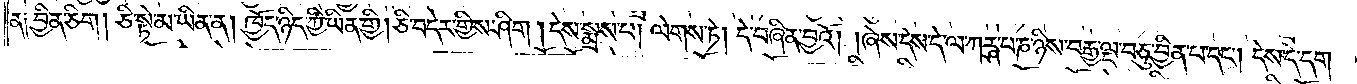ན༑ བྱིན་ཅིག །ཅི་སྟེ་མ་ཡིན་ན། ཁྱོད་ཉིད་ཀྱི་ཡིན་གྱི། ཅི་བདེར་གྱིས་ཤིག །དེས་སྨྲས་པ། ལེགས་ཏ། དེ་བཞིན་བྱའོ། །ཞེས་དེས་དེ་ལ་ཀཪྴ་པ་ཎ་ཉིས་བརྒྱ་ལྔ་བཅུ་བྱིན་པ་དང༌། དེས་དེ་དག་
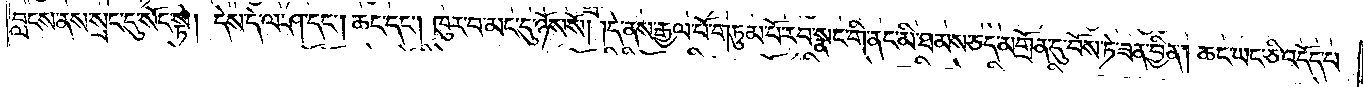བླངས་ནས་སྲང་དུ་སོང་སྟེ། དེས་དེ་ལ་ཤ་དང༌། ཆང་དང༌། ཁུར་བ་མང་དུ་ཉོས་སོ། །དེ་ནས་རྒྱལ་པོ་གཏུམ་པོ་རབ་སྣང་གི་ནང་མི་ཐམས་ཅད་མགྲོན་དུ་བོས་ཏ་ཟན་བྱིན། ཆང་ཡང་ཅི་འདོད་པ་
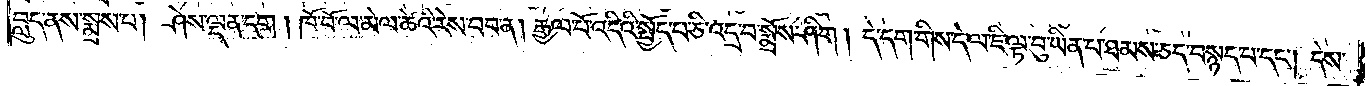བླུད་ནས་སྨྲས་པ། ཤེས་ལྡན་དག །ཁོ་བོ་ལ་མེལ་ཚེའི་རེས་བབ་ན། རྒྱལ་པོ་འདིའི་སྤྱོད་པ་ཅི་འདྲ་བ་སྨོས་ཤིག །དེ་དག་གིས་དེ་ལ་ཇི་ལྟ་བུ་ཡིན་པ་ཐམས་ཅད་བསྙད་པ་དང༌། དེས་
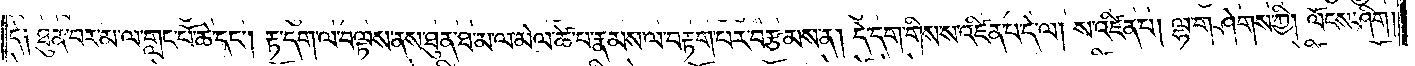དེ༑ ཐུན་བར་མ་ལ་གླང་པོ་ཆེ་དང༌། རྟ་དག་ལ་བལྟས་ནས་ཐུན་ཐ་མ་ལ་མེལ་ཚེ་པ་རྣམས་ལ་བརྟག་པར་བརྩམས་ན། དེ་དག་གིས་ས་འཛིན་པ་དེ་ལ། ས་འཛིན་པ། ལྷ་གཤེགས་ཀྱི། ལོངས་ཤིག །
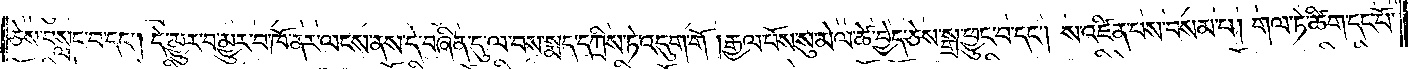ཅེས་བསླང་བ་དང༌། དེ་མྱུར་བ་མྱུར་བ་ཁོ་ནར་ལངས་ནས་དེ་བཞིན་དུ་ལ་བས་སྨད་དཀྲིས་ཏེ་འདུག་གོ །རྒྱལ་པོས་སུ་མེལ་ཚེ་བྱེད་ཅེས་སྒྲ་ཕྱུང་བ་དང༌། ས་འཛིན་པས་བསམ་པ། གལ་ཏེ་ཚིག་དང་པོ་
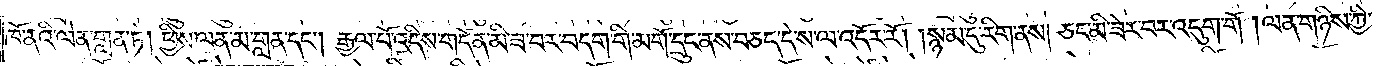ཁོ་ནའི་ལེན་གླན་ཏེ། ཕྱིས་ལན་མ་གླན་དང༌། རྒྱལ་པོ་འདིས་གདོན་མི་ཟ་བར་བདག་གི་མགོ་དྲུང་ནས་བཅད་དེ་ས་ལ་འདོར་རོ། །སྙམ་དུ་རིག་ནས། ཅང་མི་ཟེར་བར་འདུག་གོ །ལན་གཉིས་ཀྱི་
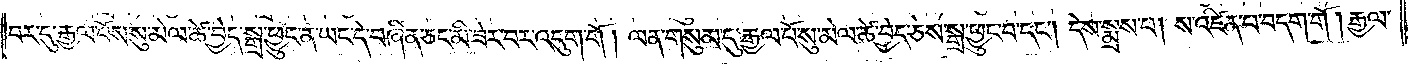བར་དུ་རྒྱལ་པོས་སུ་མེལ་ཚེ་བྱེད་སྒྲ་ཕྱུང་ན་ཡང་དེ་བཞིན་ཅང་མི་ཟེར་བར་འདུག་གོ །ལན་གསུམ་དུ་རྒྱལ་པོ་སུ་མེལ་ཚེ་བྱེད་ཅེས་སྒྲ་ཕྱུང་བ་དང༌། དེས་སྨྲས་པ། ས་འཛིན་པ་བདག་གོ །རྒྱལ་
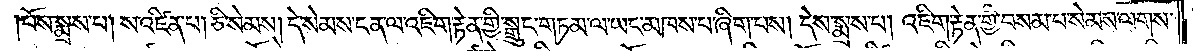པོས་སྨྲས་པ། ས་འཛིན་པ། ཅི་སེམས། དེ་སེམས་ངན་ལ་འཇིག་རྟེན་གྱི་སྒྲུང་གཏམ་ལ་ཡང་མཁས་པ་ཞིག་པས། དེས་སྨྲས་པ། འཇིག་རྟེན་གྱི་བསམ་པ་སེམས་ལགས་
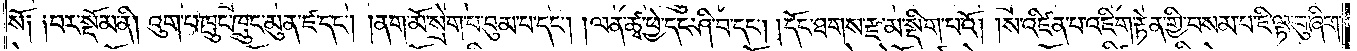སོ༑ ༑བར་སྡོམ་ནི། འུག་པ་ཁྲུང་ཁྲུང་མུན་ཛ་དང༌། །ནག་མོ་སྲེག་པ་བུམ་པ་དང༌། །ལན་ཚྭ་ཕྱེ་དང་ཤི་བ་དང༌། །དོང་ཐགས་རྫ་མ་སྡིག་པའོ། །ས་འཛིན་པ་འཇིག་རྟེན་གྱི་བསམ་པ་ཇི་ལྟ་བུ་ཞིག་
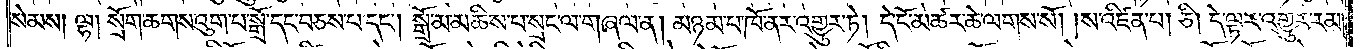སེམས། ལྷ། སྲོག་ཆགས་འུག་པ་སྒྲོ་དང་བཅས་པ་དང༌། སྒྲོ་མ་མཆིས་པ་སྲང་ལ་གཞལ་ན། མཉམ་པ་ཁོ་ནར་འགྱུར་ཏེ། དེ་ངོ་མཚར་ཆེ་ལགས་སོ། །ས་འཛིན་པ། ཅི། དེ་ལྟར་འགྱུར་རམ།
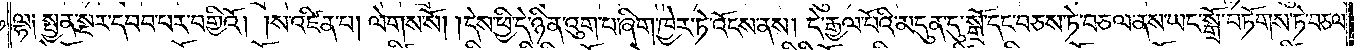ལྷ༑ སྤྱན་སྔར་དབབ་པར་བགྱིའོ། །ས་འཛིན་པ། ལེགས་སོ། །དེས་ཕྱི་དེ་ཉིན་འུག་པ་ཞིག་ཁྱེར་ཏེ་འོངས་ནས། དེ་རྒྱལ་པོའི་མདུན་དུ་སྒྲོ་དང་བཅས་ཏེ་བཅལ་ནས་ཡང་སྒྲོ་བཏོགས་ཏེ་བཅལ་
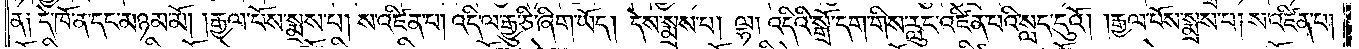ན༑ དེ་ཁོ་ན་དང་མཉམ་མོ། །རྒྱལ་པོས་སྨྲས་པ། ས་འཛིན་པ། འདི་ལ་རྒྱུ་ཅི་ཞིག་ཡོད། དེས་སྨྲས་པ། ལྷ། འདིའི་སྒྲོ་དག་གིས་རླུང་འཛིན་པའི་སླད་དུའོ། །རྒྱལ་པོས་སྨྲས་པ། ས་འཛིན་པ།
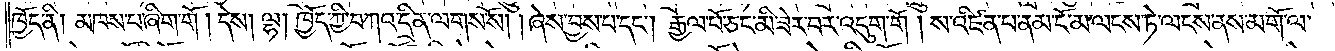ཁྱོད་ནི། མཁས་པ་ཞིག་གོ །དེས། ལྷ། ཁྱོད་ཀྱི་བཀའ་དྲིན་ལགས་སོ། །ཞེས་བྱས་པ་དང༌། རྒྱལ་པོ་ཅང་མི་ཟེར་བར་འདུག་གོ །ས་འཛིན་པ་ནམ་ངོ་མ་ལངས་ཏེ་ལངས་ནས་མགོ་ལ་
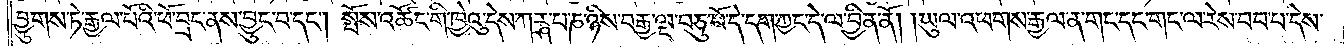བྱུགས་ཏེ་རྒྱལ་པོའི་ཕོ་བྲང་ནས་བྱུང་བ་དང༌། སྤོས་འཚོང་གི་ཁྱེའུ་དེས་ཀརྴ་པ་ཎ་ཉིས་བརྒྱ་ལྔ་བཅུ་པོ་དེ་དག་ཀྱང་དེ་ལ་བྱིན་ནོ། །ཡུལ་འཕགས་རྒྱལ་ན་གང་དང་གང་ལ་རེས་བབ་པ་དེས་
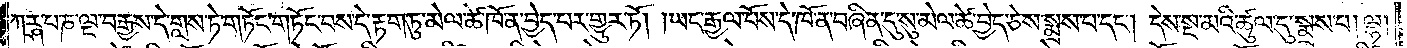ཀརྴ་པ་ཎ་ལྔ་བརྒྱས་དེ་གླས་ཏེ་གཏོང་གཏོང་བས་དེ་རྟག་ཏུ་མེལ་ཚེ་ཁོ་ན་བྱེད་པར་གྱུར་ཏེ། ཡང་རྒྱལ་པོས་དེ་ཁོ་ན་བཞིན་དུ་སུ་མེལ་ཚེ་བྱེད་ཅེས་སྨྲས་པ་དང་། དེས་སྔ་མའི་ཚུལ་དུ་སྨྲས་པ། ལྷ།
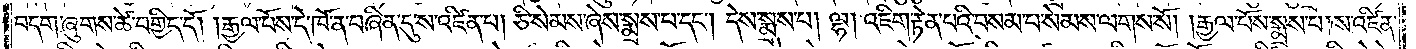བདག་ཞུགས་ཚེ་བགྱིད་དོ། །རྒྱལ་པོས་དེ་ཁོ་ན་བཞིན་དུ་ས་འཛིན་པ། ཅི་སེམས་ཞེས་སྨྲས་པ་དང༌། དེས་སྨྲས་པ། ལྷ། འཇིག་རྟེན་པའི་བསམ་པ་སེམས་ལགས་སོ། །རྒྱལ་པོས་སྨྲས་པ། ས་འཛིན་
